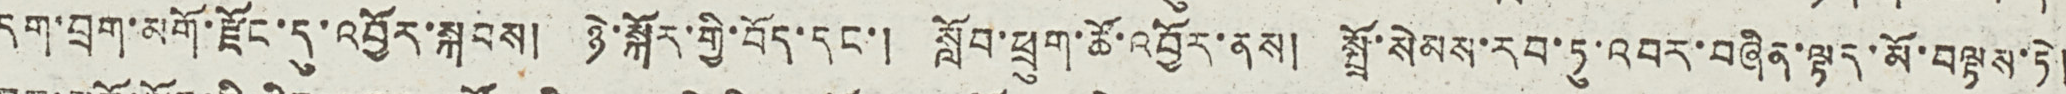དག་བྲག་མགོ་རྫོང་དུ་འབྱོར་སྐབས། ཉེ་སྐོར་གྱི་བོད་དང་། སློབ་ཕྲུག་ཚོ་འབྱོར་ནས། སྤྲོ་སེམས་རབ་ཏུ་འབར་བཞིན་ལྟད་མོ་བལྟས་ཏེ།
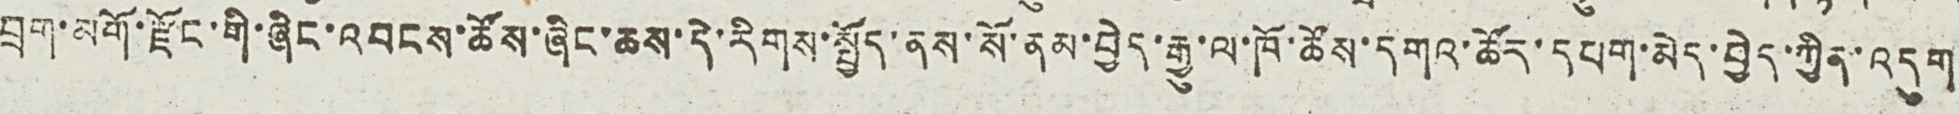བྲག་མགོ་རྫོང་གི་ཞིང་འབངས་ཚོས་ཞིང་ཆས་དེ་རིགས་སྤྱོད་ནས་སོ་ནམ་བྱེད་རྒྱུ་ལ་ཁོ་ཚོས་དགའ་ཚོར་དཔག་མེད་བྱེད་ཀྱིན་འདུག
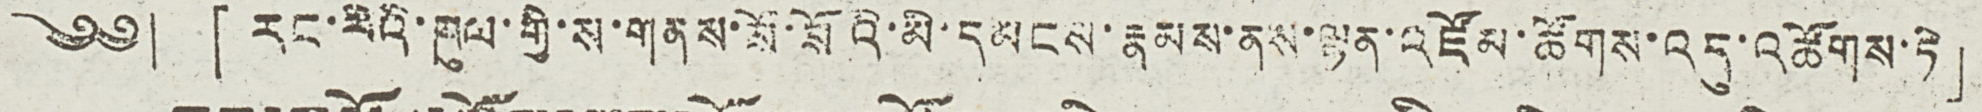༄༅། 「རང་རེའི་ཁུལ་གྱི་ས་གནས་སོ་སོའི་མི་དམངས་རྣམས་ནས་ལྷན་འཛོམ་ཚོགས་འདུ་འཚོགས་ཏེ」
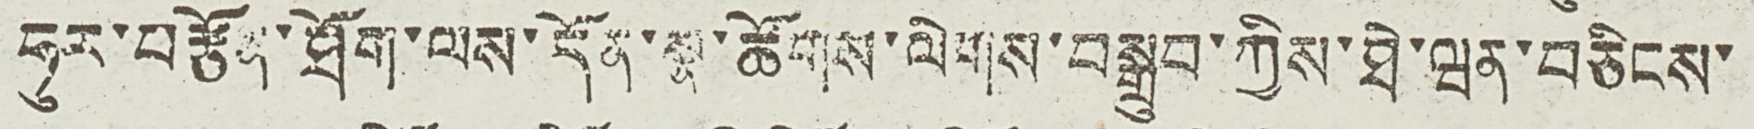ཧུར་བརྩོན་ཐོག་ལས་དོན་སྣ་ཚོགས་ལེགས་བསྒྲུབ་ཀྱིས་ཐེ་ཝན་བཅིངས་
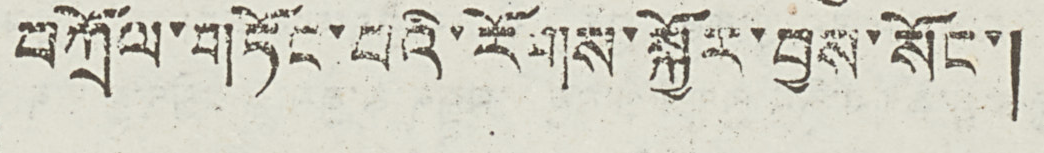བཀྲོལ་གཏོང་བའི་རོགས་སྐྱོར་བྱས་སོང་།
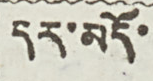དར་མདོ་
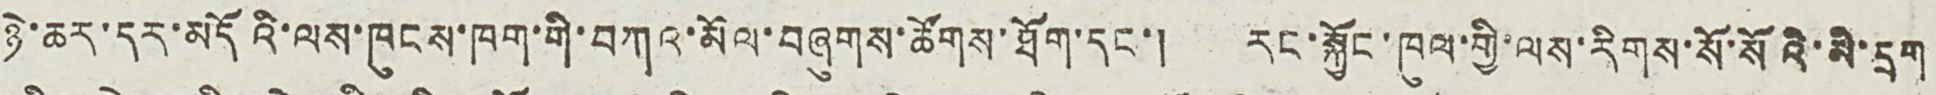ཉེ་ཆར་དར་མདོའི་ལས་ཁུངས་ཁག་གི་བཀའ་མོལ་བཞུགས་ཚོགས་ཐོག་དང་། རང་སྐྱོང་ཁུལ་གྱི་ལས་རིགས་སོ་སོའི་མི་དྲག
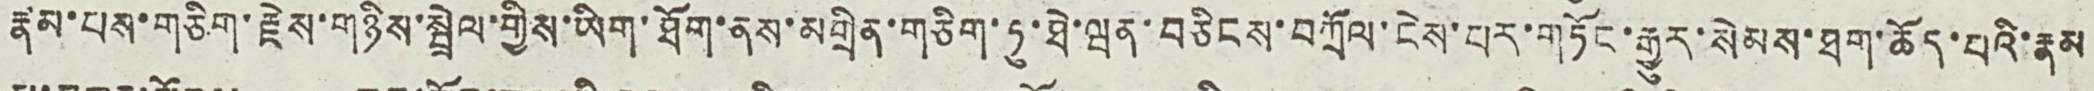རྣམ་པས་གཅིག་རྗེས་གཉིས་སྦྲེལ་གྱིས་ཡིག་ཐོག་ནས་མགྲིན་གཅིག་ཏུ་ཐེ་ཝན་བཅིངས་བཀྲོལ་ངེས་པར་གཏོང་རྒྱུར་སེམས་ཐག་ཆོད་པའི་རྣམ
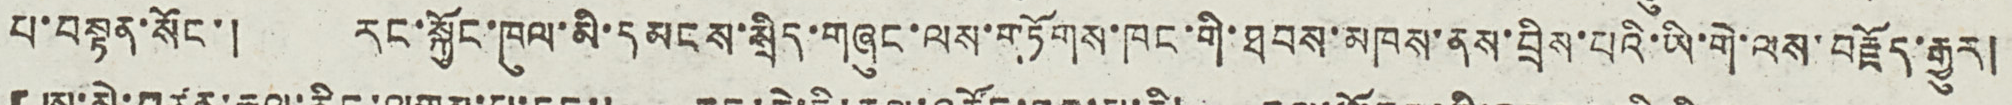པ་བསྟན་སོང་། རང་སྐྱོང་ཁུལ་མི་དམངས་སྲིད་གཞུང་ལས་གཏོགས་ཁང་གི་ཐབས་མཁས་ནས་བྲིས་པའི་ཡི་གེ་ལས་བརྗོད་རྒྱུར།
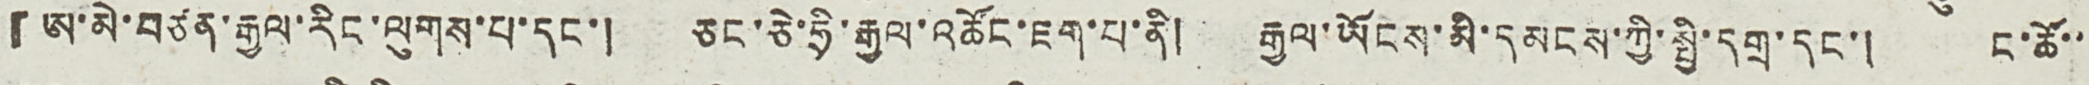『ཨ་མེ་བཙན་རྒྱལ་རིང་ལུགས་པ་དང་། ཅང་ཅེ་ཧྲི་རྒྱལ་འཚོང་ཇག་པ་ནི། རྒྱལ་ཡོངས་མི་དམངས་ཀྱི་སྤྱི་དགྲ་དང་། ང་ཚོ་་
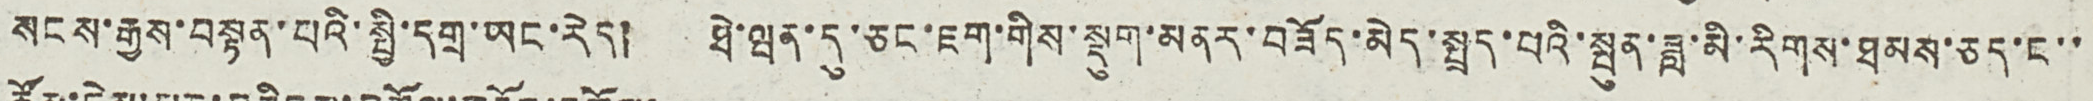སངས་རྒྱས་བསྟན་པའི་སྤྱི་དགྲ་ཡང་རེད། ཐེ་ཝན་དུ་ཅང་ཇག་གིས་སྡུག་མནར་བཟོད་མེད་སྤྲད་པའི་སྤུན་ཟླ་མི་རིགས་ཐམས་ཅད་ང་་
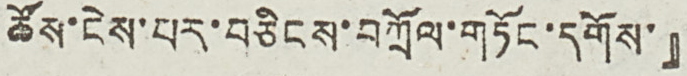ཚོས་ངེས་པར་བཅིངས་བཀྲོལ་གཏོང་དོགས་』
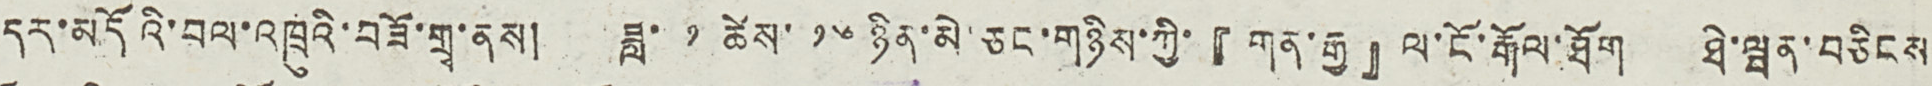དར་མདོའི་བལ་འཁྲུའི་བཟོ་གྲྭ་ནས། ཟླ་ ༡ ཚེས་ ༡༦ ཉིན་མེ་ཅང་གཉིས་ཀྱི་『གན་རྒྱ』ལ་ངོ་རྒོལ་ཐོག ཐེ་ཝན་བཅིངས
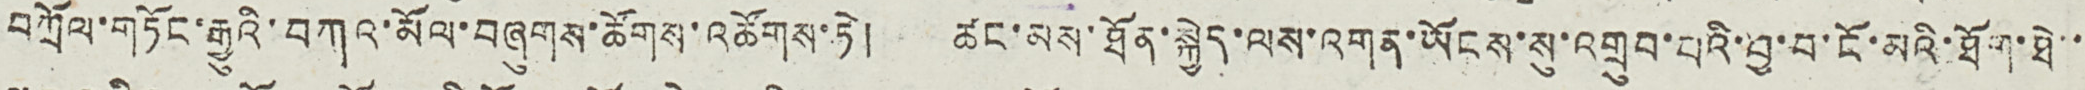བཀྲོལ་གཏོང་རྒྱུའི་བཀའ་མོལ་བཞུགས་ཚོགས་འཚོགས་ཏེ། ཚང་མས་ཐོན་སྐྱེད་ལས་འགན་ཡོངས་སུ་འགྲུབ་པའི་བྱ་བ་ངོ་མའི་ཐོག་ཐེ་་
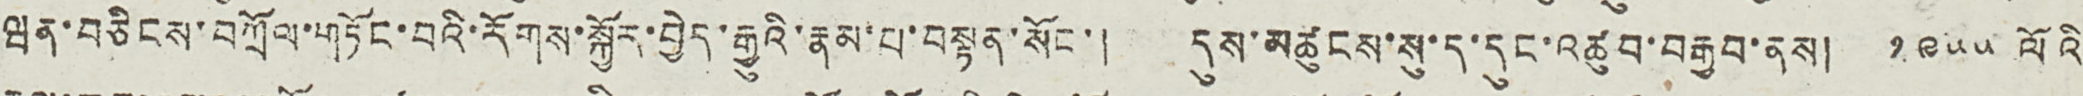ཝན་བཅིངས་བཀྲོལ་གཏོང་བའི་རོགས་སྐྱོར་བྱེད་རྒྱུའི་རྣམ་པ་བསྟན་སོང་། དུས་མཚུངས་སུ་ད་དུང་འཚུབ་བརྒྱབ་ནས། ༡༩༥༥ ལོའི
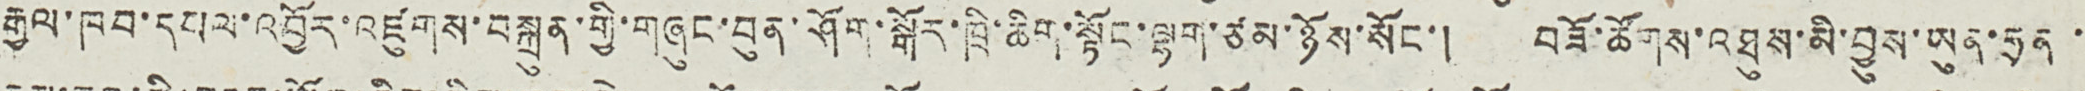རྒྱལ་ཁབ་དཔལ་འབྱོར་འཛུགས་བསྐྲུན་གྱི་གཞུང་བུན་ཤོག་སྒོར་ཁྲི་ཆིག་སྟོང་ལྷག་ཙམ་ཉོས་སོང་། བཟོ་ཚོགས་འཐུས་མི་བྱུས་ཡུན་ཧྲན་
